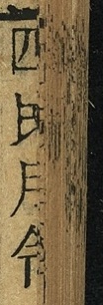四民月令
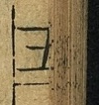五
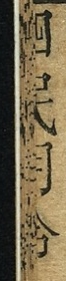四民月令
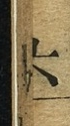六
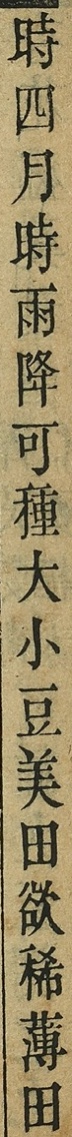時四月時雨降可種大小豆美田欲稀薄田
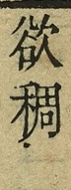欲稠
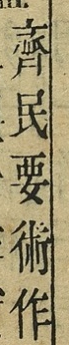齊民要術作
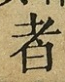者
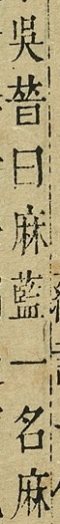吳普曰麻藍一名麻
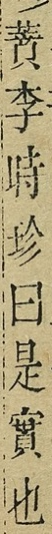蕡李時珍曰是實也
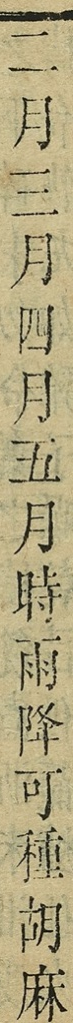二月三月四月五月時雨降可種胡麻
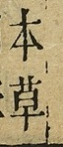本草
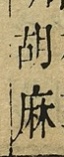胡麻
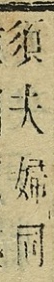須夫婦同
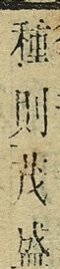種則茂盛
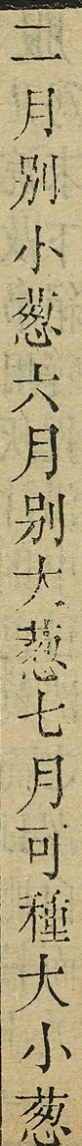二月別小葱六月別大葱七月可種大小葱
